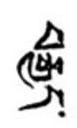བརྒྱད་
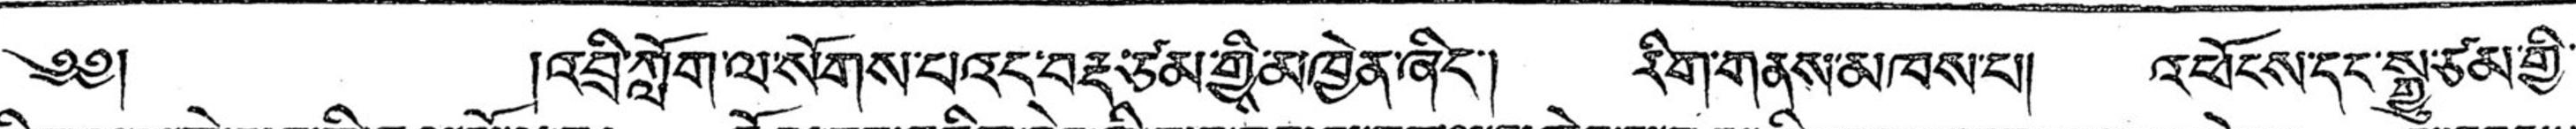༄༅།  །འབྲི་ཀློག་ལ་སོགས་པའང་བརྡ་ཙམ་གྱིས་མཁྱེན་ཞིང་། རིག་གནས་མཁས་པ། འཕོངས་དང་སྒྱུ་ཙམ་གྱི་
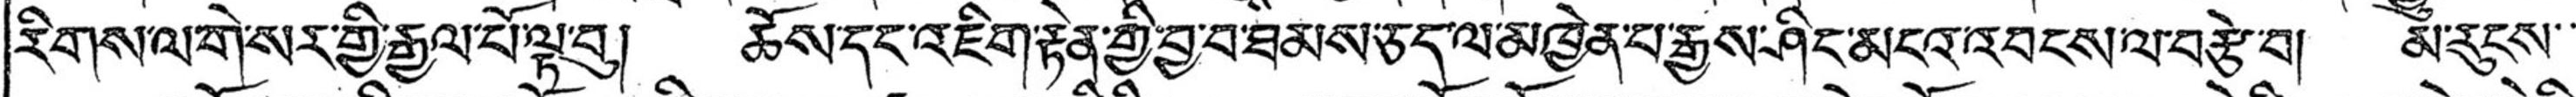རིགས་ལ་གེ་སར་གྱི་རྒྱལ་པོ་ལྟ་བུ། ཆོས་དང་འཇིག་རྟེན་གྱི་བྱ་བ་ཐམས་ཅད་ལ་མཁྱེན་པ་རྒྱས་ཤིང་མངའ་འབངས་ལ་བརྩེ་བ། མ་རུངས་་
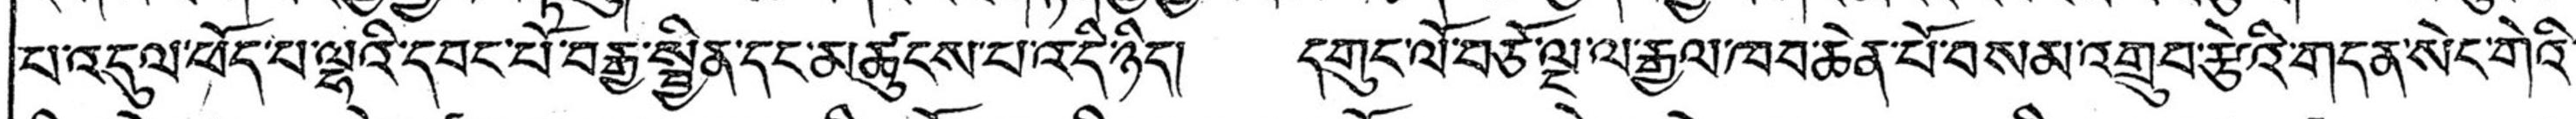པ་འདུལ་ཕོད་པ་ལྷའི་དབང་པོ་བརྒྱ་སྦྱིན་དང་མཚུངས་པ་འདི་ཉིད། དགུང་ལོ་བཅོ་ལྔ་ལ་རྒྱལ་ཁབ་ཆེན་པོ་བསམ་འགྲུབ་རྩེའི་གདན་སེང་གེའི་
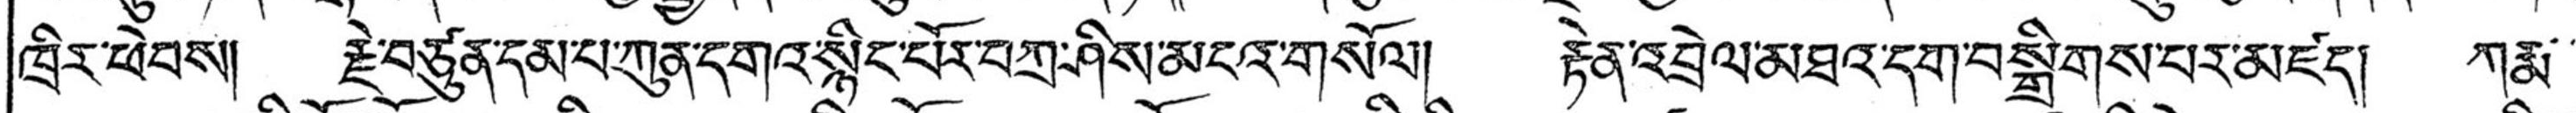ཁྲིར་ཕེབས། རྗེ་བཙུན་དམ་པ་ཀུན་དགའ་སྙིང་པོར་པཀྲ་ཤིས་མངའ་གསོལ། རྟེན་འབྲེལ་མཐའ་དག་བསྒྲིགས་པར་མཛད། ཀརྨ་་
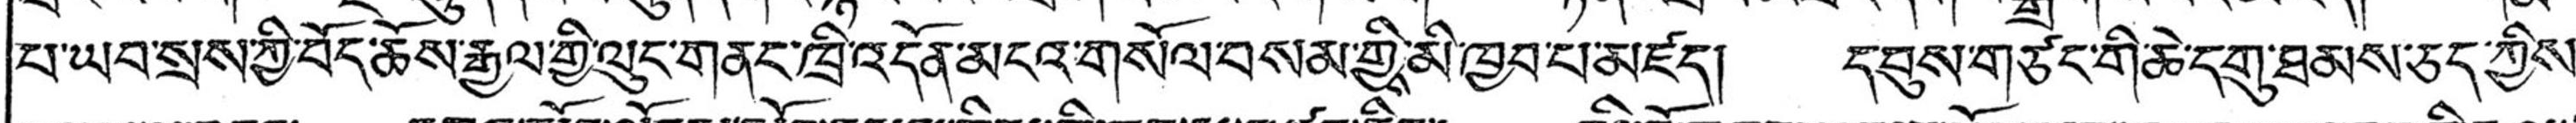པ་ཡབ་སྲས་ཀྱི་བོད་ཆོས་རྒྱལ་གྱི་ལུང་གནང་ཁྲི་འདོན་མངའ་གསོལ་བསམ་གྱིས་མི་ཁྱབ་པ་མཛད། དབུས་གཙང་གི་ཆེ་དགུ་ཐམས་ཅད་ཀྱིས་
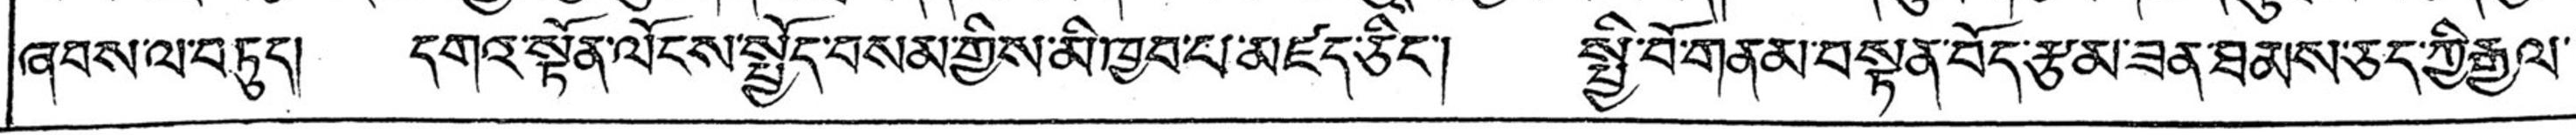ཞབས་ལ་བཏུད། དགའ་སྟོན་ལོངས་སྤྱོད་བསམ་གྱིས་མི་ཁྱབ་པ་མཛད་ཅིང་། སྤྱི་བོ་གནམ་བསྟན་བོད་རྩམ་ཟན་ཐམས་ཅད་ཀྱི་རྒྱལ་་
